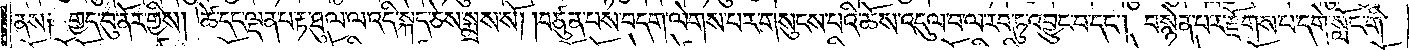ནས༑ གྱད་བུ་ནོར་གྱི། ཚེ་དང་ལྡན་པ་རྟ་ཐུལ་ལ་འདི་སྐད་ཅེས་སྨྲས་སོ། །བཙུན་པས་བདག་ལེགས་པར་གསུངས་པའི་ཆོས་འདུལ་བ་ལ་རབ་ཏུ་འབྱུང་བ་དང༌། བསྙེན་པར་རྫོགས་པ་དགེ་སློང་གི་
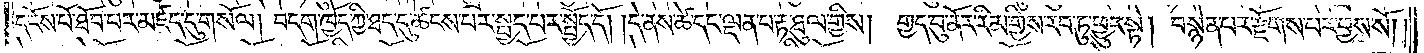དངོས་པོ་ཐོབ་པར་མཛད་དུ་གསོལ། བདག་ཁྱོད་ཀྱི་ཐད་དུ་ཚངས་པར་སྤྱད་པར་སྤྱོད་དོ། །དེ་ནས་ཚེ་དང་ལྡན་པ་རྟ་ཐུལ་གྱིས། གྱད་བུ་ནོར་རིམ་གྱིས་རབ་ཏུ་ཕྱུང་སྟེ། བསྙེན་པར་རྫོགས་པར་བྱས་སོ། །
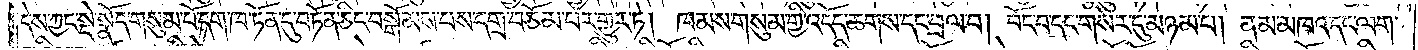དེས་ཀྱང་སྡེ་སྣོད་གསུམ་པོ་དག་ཁ་ཏོན་དུ་བཏོན་ཅིང་བསྒོམས་པས་དགྲ་བཅོམ་པར་གྱུར་ཏེ། ཁམས་གསུམ་གྱི་འདོད་ཆགས་དང་བྲལ་བ། བོང་བ་དང་གསེར་དུ་མཉམ་པ། ནམ་མཁའ་དང་ལག་
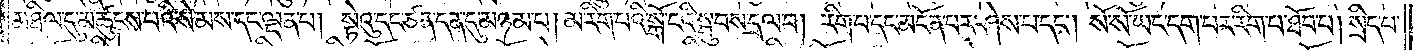མཐིལ་དུ་མཚུངས་པའི་སེམས་དང་ལྡན་པ། སྟེའུ་དང་ཙན་དན་དུ་མཉམ་པ། མ་རིག་པའི་སྒོ་ངའི་སྦུབས་དྲལ་བ། རིག་པ་དང་མངོན་པར་ཤེས་པ་དང༌། སོ་སོ་ཡང་དག་པར་རིག་པ་ཐོབ་པ། སྲིད་པ་
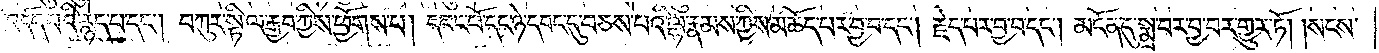དང་འདོད་པའི་རྙེད་པ་དང༌། བཀུར་སྟི་ལ་རྒྱབ་ཀྱིས་ཕྱོགས་པ། དབང་པོ་དང་ཉེ་དབང་དུ་བཅས་པའི་ལྷ་རྣམས་ཀྱིས་མཆོད་པར་བྱ་བ་དང༌། རྗེད་པར་བྱ་བ་དང༌། མངོན་དུ་སྨྲ་བར་བྱ་བར་གྱུར་ཏོ། །སངས་
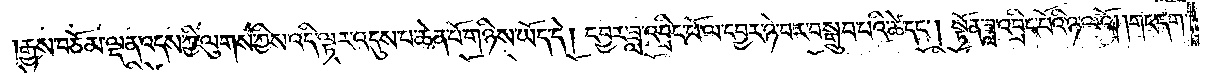རྒྱས་བཅོམ་ལྡན་འདས་ཀྱི་ལུགས་ཀྱིས་འདི་ལྟར་འདུས་པ་ཆེན་པོ་གཉིས་ཡོད་དེ། དབྱར་ཟླ་འབྲིང་པོ་ལ་དབྱར་ཉེ་བར་བསྒྲུབ་པའི་ཚེ་དང༌། སྟོན་ཟླ་འབྲིང་པོའི་ཉ་ལའོ། །གང་དག་
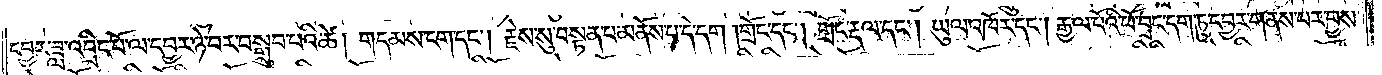དབྱར་ཟླ་འབྲིང་པོ་ལ་དབྱར་ཉེ་བར་བསྒྲུབ་པའི་ཚེ། གདམས་ངག་དང༌། རྗེས་སུ་བསྟན་པ་མནོས་པ་དེ་དག །གྲོང་དང༌། གྲོང་རྡལ་དང༌། ཡུལ་འཁོར་དང༌། རྒྱལ་པོའི་ཕོ་བྲང་དག་ཏུ་དབྱར་གནས་པར་བྱས་
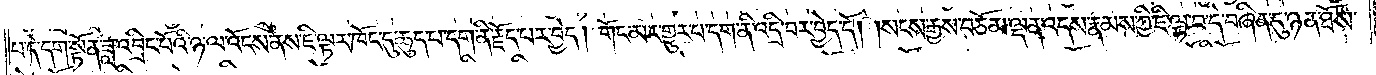པ་དེ་དག་སྟོན་ཟླ་འབྲིང་པོའི་ཉ་ལ་འོངས་ནས་ཇི་ལྟར་ཁོང་དུ་ཆུད་པ་དག་ནི་རྗོད་པར་བྱེད། གོང་མར་གྱུར་པ་དག་ནི་འདྲི་བར་བྱེད་དོ། །སངས་རྒྱས་བཅོམ་ལྡན་འདས་རྣམས་ཀྱི་ཇི་ལྟ་བ་དེ་བཞིན་དུ་ཉན་ཐོས་
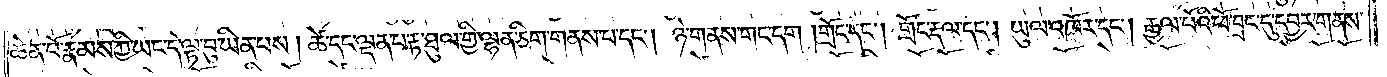ཆེན་པོ་རྣམས་ཀྱི་ཡང་དེ་ལྟ་བུ་ཡིན་པས། ཚེ་དང་ལྡན་པ་རྟ་ཐུལ་གྱི་ལྷན་ཅིག་གནས་པ་དང༌། ཉེ་གནས་གང་དག །གྲོང་དང༌། གྲོང་རྡལ་དང༌། ཡུལ་འཁོར་དང༌། རྒྱལ་པོའི་ཕོ་བྲང་དུ་དབྱར་གནས་
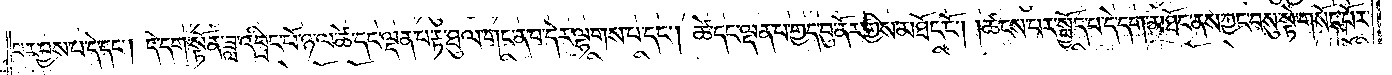པར་བྱས་པ་དེ་དང༌། དེ་དག་སྟོན་ཟླ་འབྲིང་པོ་ཉ་ལ་ཚེ་དང་ལྡན་པ་རྟ་ཐུལ་གང་ན་བ་དེར་ལྷགས་པ་དང༌། ཚེ་དང་ལྡན་པ་གྱད་བུ་ནོར་གྱིས་མཐོང་ངོ༌། །ཚངས་པར་སྤྱོད་པ་དེ་དག་མཐོང་ནས་ཀྱང་བསུ་སྟེ་གསོང་པོར་
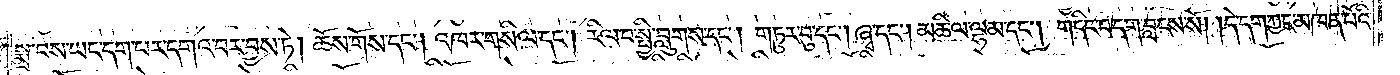སྨྲ་བས་ཡང་དག་པར་དགའ་བར་བྱས་ཏེ། ཆོས་གོས་དང༌། འཁར་གསིལ་དང༌། རིལ་བ་སྤྱི་བླུགས་དང༌། གཏུར་བུ་དང༌། ཞྭ་དང༌། མཆིལ་ལྷམ་དང༌། གདིང་བ་དག་བླངས་སོ། །དེ་དག་ཀྱང་མཁན་པོའི་
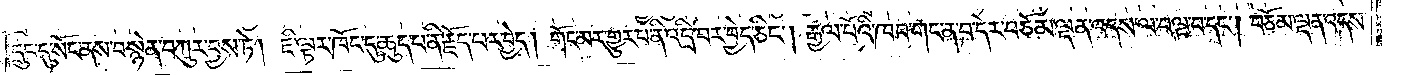དྲུང་དུ་སོང་ནས་བསྙེན་བཀུར་བྱས་ཏེ། ཇི་ལྟར་ཁོང་དུ་ཆུད་པ་ནི་རྗོད་པར་བྱེད། གོང་མར་གྱུར་པ་ནི་འདྲི་བར་བྱེད་ཅིང༌། རྒྱལ་པོའི་ཁབ་གང་ན་བ་དེར་བཅོམ་ལྡན་འདས་ལ་བལྟ་བ་དང༌། བཅོམ་ལྡན་འདས་
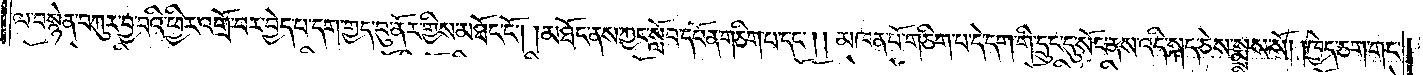ལ་བསྙེན་བཀུར་བྱ་བའི་ཕྱིར་འགྲོ་བར་བྱེད་པ་དག་གྱད་བུ་ནོར་གྱིས་མཐོང་ངོ༌། །མཐོང་ནས་ཀྱང་སློབ་དཔོན་གཅིག་པ་དང༌། །མཁན་པོ་གཅིག་པ་དེ་དག་གི་དྲུང་དུ་སོང་ནས་འདི་སྐད་ཅེས་སྨྲས་སོ། །ཁྱེད་ཅག་གང་
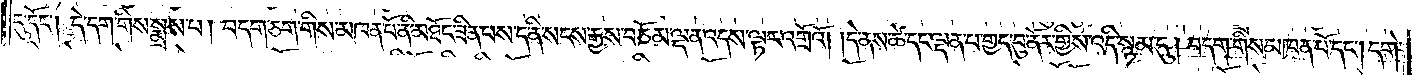དུ་དོང༌། དེ་དག་གིས་སྨྲས་པ། བདག་ཅག་གིས་མཁན་པོ་ནི་མཐོང་ཟིན་པས་ད་ནི་སངས་རྒྱས་བཅོམ་ལྡན་འདས་ལྟར་འགྲོའོ། །དེ་ནས་ཚེ་དང་ལྡན་པ་གྱད་བུ་ནོར་གྱིས་འདི་སྙམ་དུ། བདག་གིས་མཁན་པོ་དང༌། དགེ་
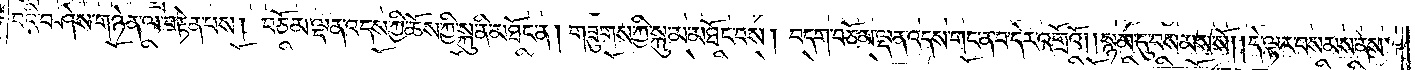བའི་བཤེས་གཉེན་ལ་བརྟེན་པས། བཅོམ་ལྡན་འདས་ཀྱི་ཆོས་ཀྱི་སྐུ་ནི་མཐོང་ན། གཟུགས་ཀྱི་སྐུ་མ་མཐོང་བས། བདག་བཅོམ་ལྡན་འདས་གང་ན་བ་དེར་འགྲོའོ། །སྙམ་དུ་བསམས་སོ། །དེ་ལྟར་བསམས་ནས་
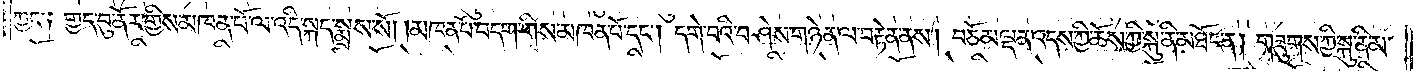ཀྱང༌། གྱད་བུ་ནོར་གྱིས་མཁན་པོ་ལ་འདི་སྐད་སྨྲས་སོ། །མཁན་པོ་བདག་གིས་མཁན་པོ་དང༌། དགེ་བའི་བཤེས་གཉེན་ལ་བརྟེན་ནས། བཅོམ་ལྡན་འདས་ཀྱི་ཆོས་ཀྱི་སྐུ་ནི་མཐོང་ན། གཟུགས་ཀྱི་སྐུ་ནི་མ་
